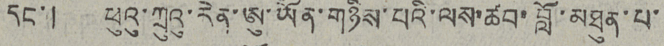དང་། ཕུའུ་ཀྲུའུ་རེན་ཨུ་ཡོན་གཉིས་པའི་ལས་ཚབ་བློ་མཐུན་པ་
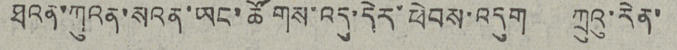ཐའན་ཀུའན་སའན་ཡང་ཚོགས་འདུ་དེར་ཕེབས་འདུག ཀྲུའུ་རེན་
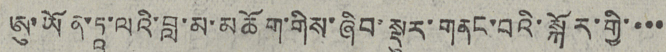ཨུ་ཡོན་ཏཱ་ལའི་བླ་མ་མཆོག་གིས་ཞིབ་སྡུར་གནང་བའི་སྐོར་གྱི་་་་
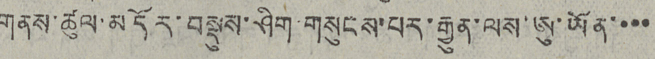གནས་ཚུལ་མདོར་བསྡུས་ཤིག་གསུངས་པར་རྒྱུན་ལས་ཨུ་ཡོན་་་
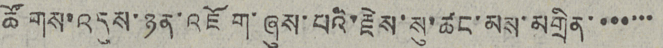ཚོགས་འདུས་ཉན་འཇོག་ཞུས་པའི་རྗེས་སུ་ཚང་མས་མགྲིན་་་་་་
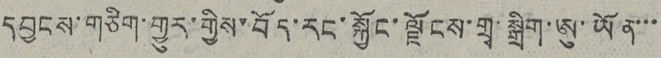དབྱངས་གཅིག་གྱུར་གྱིས་བོད་རང་སྐྱོང་ལྗོངས་གྲྭ་སྒྲིག་ཨུ་ཡོན་་་་
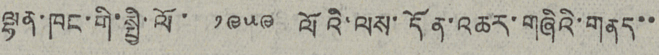ལྷན་ཁང་གི་སྤྱི་ལོ་ ༡༩༥༩ ལོའི་ལས་དོན་འཆར་གཞིའི་གནད་
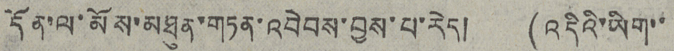དོན་ལ་མོས་མཐུན་གཏན་འབེབས་བྱས་པ་རེད།  ( འདིའི་ཡིག་་
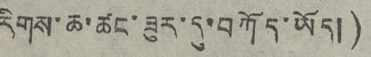རིགས་ཆ་ཚང་ཟུར་དུ་བཀོད་ཡོད།)
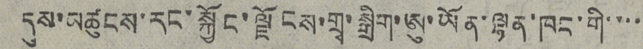དུས་མཚུངས་རང་སྐྱོང་ལྗོངས་གྲྭ་སྒྲིག་ཨུ་ཡོན་ལྷན་ཁང་གི་་་
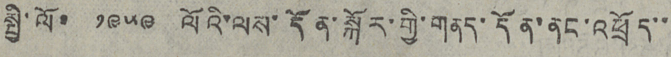སྤྱི་ལོ་ ༡༩༥༩ ལོའི་ལས་དོན་སྐོར་གྱི་གནད་དོན་ནང་འཕྲོད་་
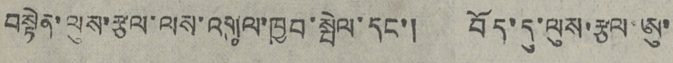བསྟེན་ལུས་རྩལ་ལས་འགུལ་ཁྱབ་སྤེལ་དང་།  བོད་དུ་ལུས་རྩལ་ཨུ་
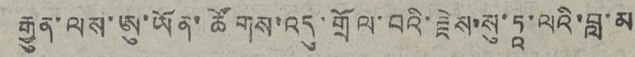རྒྱུན་ལས་ཨུ་ཡོན་ཚོགས་འདུ་གྲོལ་བའི་རྗེས་སུ་ཏཱ་ལའི་བླ་མ
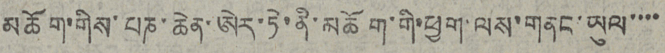མཆོག་གིས་པཎ་ཆེན་ཨེར་ཏེ་ནི་མཆོག་གི་ཕྱག་ལས་གནང་ཡུལ་་་་
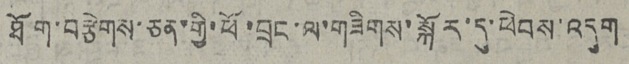ཐོག་བརྩེགས་ཅན་གྱི་ཕོ་བྲང་ལ་གཟིགས་སྐོར་དུ་ཕེབས་འདུག
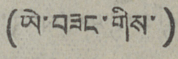(ཡེ་བཟང་གིས་)
